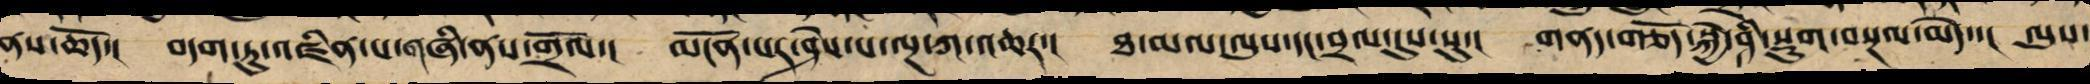ནས་ཆོད་། བདག་ཏུ་འཛིན་པ་གཞི་ནས་གྲོལ་། མངོན་པར་ཤེས་པ་ལྔ་ཀ་འཆར་། ཐ་མལ་ལུས་དང་བྲལ་དུས་སུ་། གནད་གཅོད་སྐྱེ་ཤི་སྡུག་བསྔལ་མེད་། ལུས་
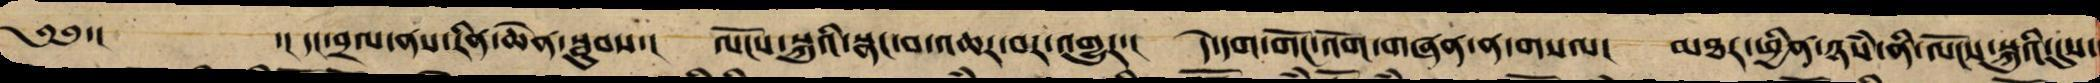༄༅་།  ་། དང་བྲལ་ནས་རིན་ཆེན་སྦུབས་། ལོངས་སྐུའི་སྣང་བ་འཆར་བར་འགྱུར་། དེ་དག་གོང་འོག་གཞན་ན་གསལ་། མཐར་ཕྱིན་ཉཾས་ནི་ལོངས་སྐུའི་དུས་
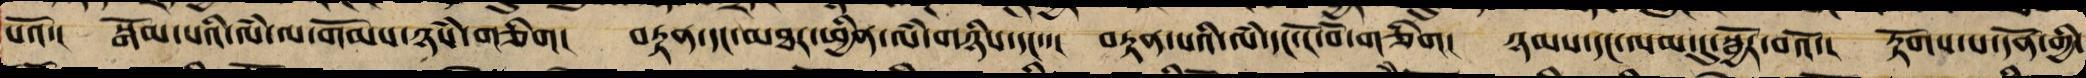པའོ་། སྒོམ་པའི་ལམ་དང་གོམས་ཉཾས་གཅིག། བརྟན་དང་མཐར་ཕྱིན་ལཾ་གཉིས་དང་་། བརྟན་པའི་ལཾ་དང་ངོ་བོ་གཅིག། ཉམས་དང་ལམ་དུ་སྦྱོར་བའོ་། རྟོགས་པ་དོན་གྱི་
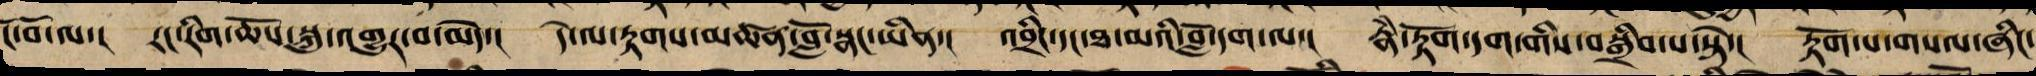ངོ་བོ་ལ་། རང་རིག་ཆོས་སྐུ་འགྱུར་བ་མེད་། དེ་ལ་རྟགས་མཚན་བློ་སྣང་ཡིན་། འབྲིང་དང་ཐ་མའི་བློ་དག་ལ་། རྣཾ་རྟོག་དག་གིས་བསྒྲིབ་པ་སྟེ་། རྟོག་པ་གསལ་ཞིང་
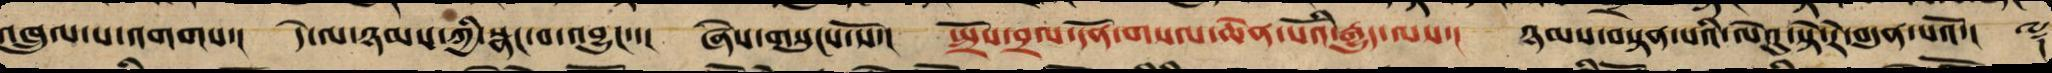འཁྲུལ་པ་འགགས་། དེ་ལ་ཉམས་ཀྱི་སྣང་བ་འབྱུང་་། ཞེས་གསུངས་སོ་། སྤྲོས་བྲལ་དོན་གསལ་ཆེན་པོའི་རྒྱུད་ལས་། ཉམས་བསྟན་པའི་ལེའུ་སྟེ་རེ་བདུན་པའོ་།། ༈
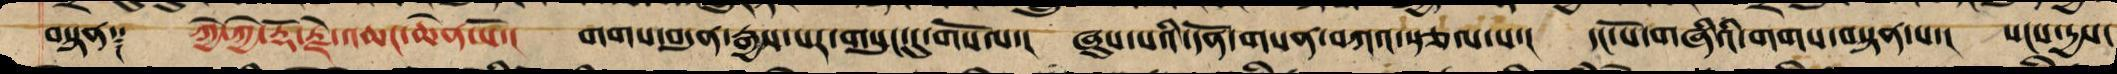བསྟན༑ ཀྱེ་ཀྱེ་རྡོ་རྗེ་འཆང་ཆེན་པོ་། གགས་བདུན་རྒྱས་པར་གསུང་དུ་གསོལ་། ཞུས་པའི་དོན་གསན་བཀའ་སྩལ་པ་། དང་པོ་གཞི་ཡི་གགས་བསྟན་པ་། སངས་དྱས་
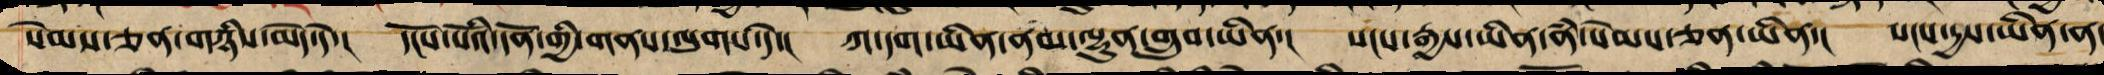སེམས་ཅན་གཉིས་མེད་དེ་། དངོས་པོའི་དོན་གྱི་གནས་ལུགས་དེ་། ཀ་དག་ཡིན་ནམ་ལྷུན་གྲུབ་ཡིན་། སངས་རྒྱས་ཡིན་ནཾ་སེམས་ཅན་ཡིན་། སངས་དྱས་ཡིན་ན་
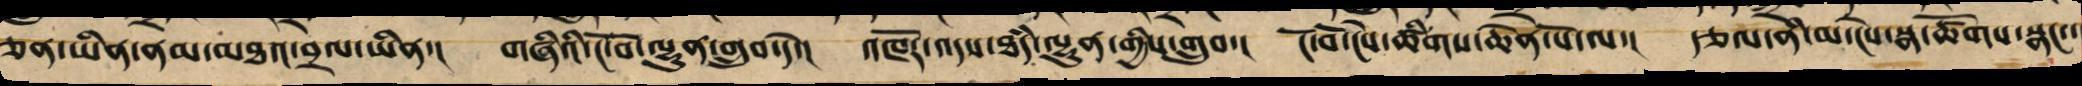ཅན་ཡིན་ནམ་མཐའ་བྲལ་ཡིན་། གཞི་ཡི་ངོ་བོ་ལྷུན་གྲུབ་དེར་། འཁོར་འདས་ཐཾད་ལྷུན་གྱིས་གྲུབ་། ངོ་བོ་ངེས་པ་ཆེན་པོ་ལ་། རྩལ་ནི་མ་ངེས་སྣ་ཚོགས་སྣང་་
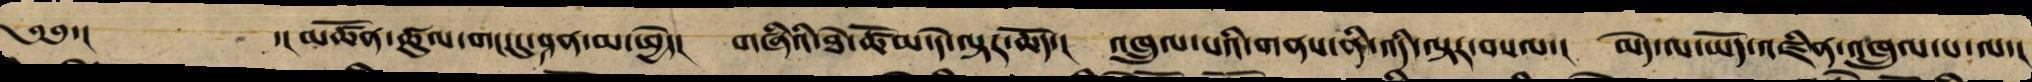༄༅་།  ་།མཚོན་ཚུལ་གང་དུ་ཤན་མ་ཕྱེད་། གཞི་ཡི་ཐེ་ཚོམ་དེ་ལྟར་ཆོད་། འཁྲུལ་པའི་གནས་ནི་འདི་ལྟར་བསལ་། མེད་ལ་ཡོད་འཛིན་འཁྲུལ་པ་ལ་།
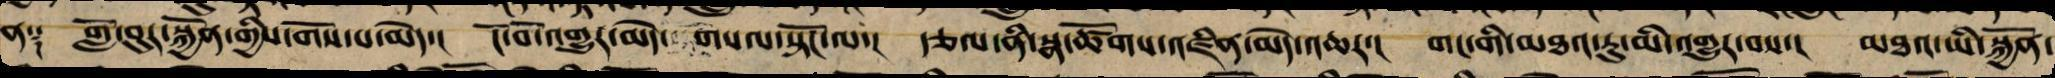ན༑ གློ་བུར་སྐྱོན་གྱིས་གོས་པ་མེད་། ངོ་བོ་འགྱུར་མེད་གསལ་སྟོང་ལ་། རྩལ་ནི་སྣ་ཚོགས་འཛིན་མེད་འཆར་། གང་གི་མཐའ་རུ་མི་འགྱུར་བས་། མཐའ་ཡི་སྐྱོན་
